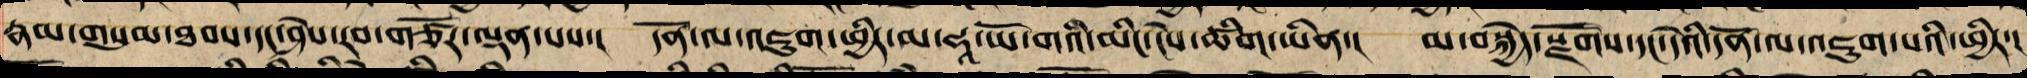རྣམ་གསུམ་ཐབས་དང་ཤེས་རབ་གཙོར་བཏོན་པས་། དོན་ལ་འཇུག་ཕྱིར་མ་ཧཱ་ཡོ་གའི་མིང་གི་ངེས་ཚིག་ཡིན་། མ་བསྐྱེད་སྫོགས་དང་དེ་ཡི་དོན་ལ་འཇུག་པའི་ཕྱིར་།
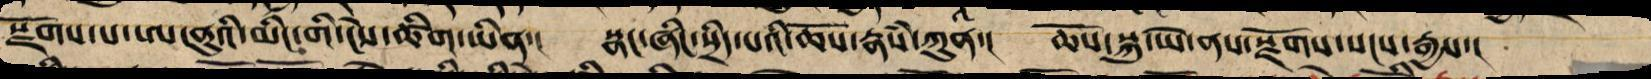སྫོགས་པ་ཨ་ནུའི་མིང་གི་ངེས་ཚིག་ཡིན་། སྣང་ཞིང་སྲིད་པའི་ཆོས་རྣཾས་ཀུན་། ཆོས་སྐུ་ཡེ་ནས་སྫོགས་སངས་རྒྱས་།
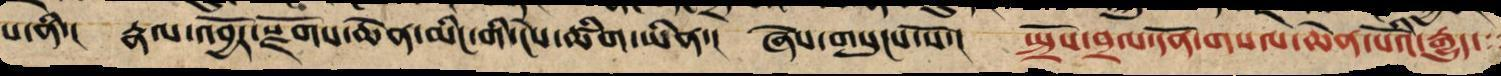པ་ནི་། རྣལ་འབྱོར་སྫོགས་ཆེན་མིང་གི་ངེས་ཚིག་ཡིན་། ཞེས་གསུངས་སོ་། སྤྲོས་བྲལ་དོན་གསལ་ཆེན་པོའི་རྒྱུད་
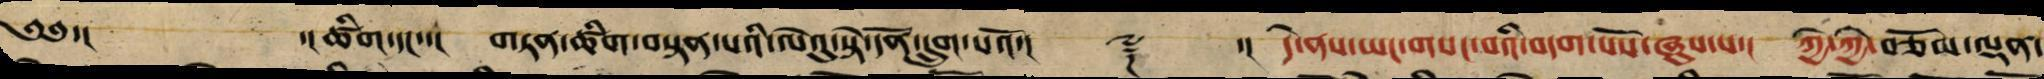༄༅་།  ་།ཚིག་དང་་། གཏན་ཚིགས་བསྟན་པའི་ལེའུ་སྟེ་དོན་དྲུག་པའོ་།། ༈ ་།། དེ་ནས་ཡང་གསང་བའི་བདག་པོས་ཞུས་པ་། ཀྱེ་ཀྱེ་བཅོམ་ལྡན་
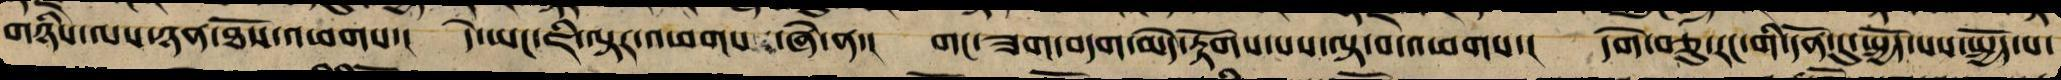གཉིས་ལས་ཉན་ཐོས་འཕགས་། དེ་ཡང་ཅི་ལྟར་འཕགས་ཞེ་ན་། གང་ཟག་བདག་མེད་རྟོགས་པས་ལྟ་བ་འཕགས་། དགེ་བཅུ་རང་གིས་དོན་དུ་སྤྱོད་པས་སྤྱོད་པ་
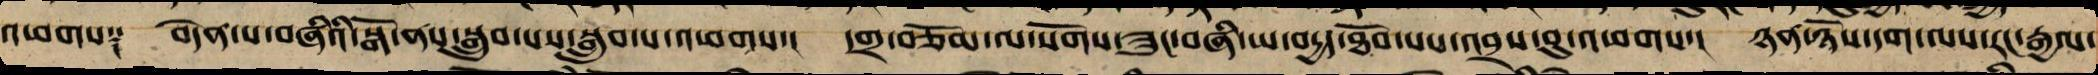འཕགས༑ བདེན་པ་བཞི་ཡི་སྒོ་ནས་སྒྲུབ་པས་སྒྲུབ་པ་འཕགས་། དགྲ་བཅོམ་ལ་སོགས་ཟུང་བཞི་ཡ་བདྱད་ཐོབ་པས་འབྲས་བུ་འཕགས་། ཉན་ཐོས་དག་ལས་རང་རྒྱལ་
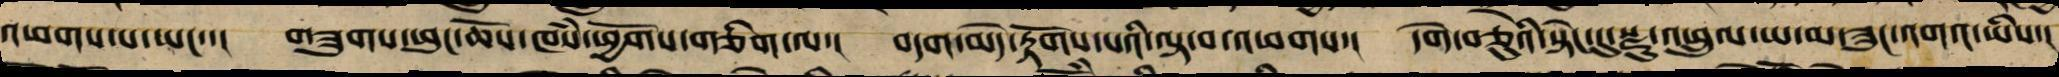འཕགས་པ་ཡང་་། གཟུགས་ཕུང་ཆོས་ཁཾས་ཕྱོགས་གཅིག་ལ་། བདག་མེད་རྟོགས་པའི་ལྟ་བ་འཕགས་། དགེ་བཅུའི་སྟེང་དུ་སྫུ་འཕྲུལ་ཡ་མ་ཟུང་འགའ་ཡིས་།
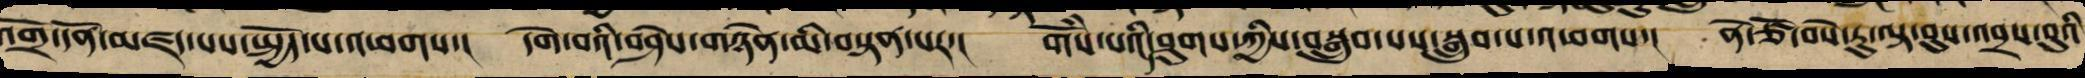འགྲོ་དོན་མཛད་པས་སྤྱོད་པ་འཕགས་། དགེ་བའི་བཤེས་གཉེན་མི་བསྟན་པར་། གོཾས་པའི་ཤུགས་ཀྱིས་བསྒྲུབ་པས་སྒྲུབ་པ་འཕགས་། ནེ་ཙོ་བསེ་རུ་ལྟ་བུས་འབྲས་བུའི
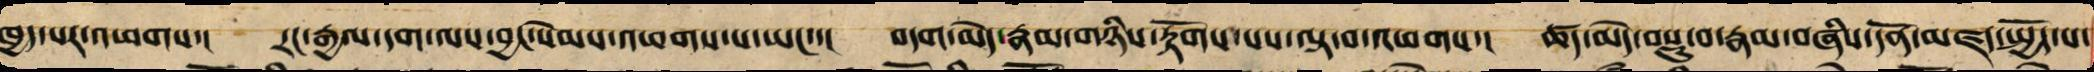ཁྱད་པར་འཕགས་། རང་རྒྱལ་དག་ལས་བྱང་སེམས་འཕགས་པ་ཡང་་། བདག་མེད་རྣམ་གཉིས་རྟོགས་པས་ལྟ་བ་འཕགས་། ཚད་མེད་བསྡུ་བ་རྣམ་བཞིས་དོན་མཛད་སྤྱོད་པ་
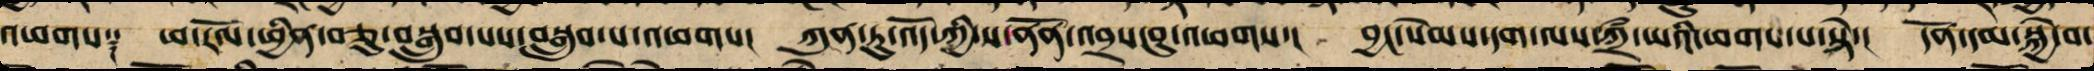འཕགས༑ ཕ་རོལ་ཕྱིན་བཅུ་བསྒྲུབ་པས་བསྒྲུབ་པ་འཕགས་། ཀུན་ཏུ་འོད་ཀྱི་ས་ནོན་འབྲས་བུ་འཕགས་། བྱང་སེམས་དག་ལས་ཀྲྀ་ཡ་འཕགས་པ་སྟེ་། དོན་དམ་སྐྱེ་བ་
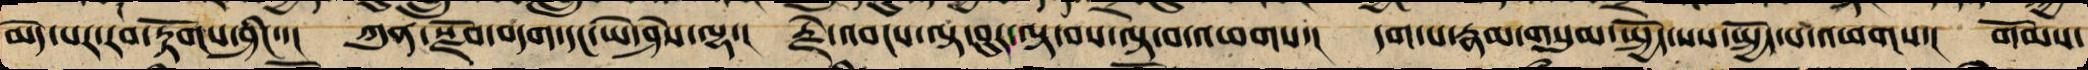མེད་པར་རབ་རྟོགས་ཤིང་་། ཀུན་སྫོབ་བདག་དང་ཡེ་ཤེས་ལྷ་། རྗེ་འབངས་ལྟ་བུར་བལྟ་བས་ལྟ་བ་འཕགས་། དག་པ་རྣམ་གསུམ་སྤྱོད་པས་སྤྱོད་པ་འཕགས་། གོམས་
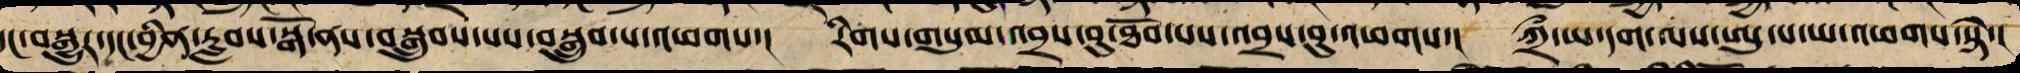དང་བསྒྱུར་དང་བྱིན་རླབས་སྒོ་ནས་བསྒྲུབ་པས་སྒྲུབ་པ་འཕགས་། རིགས་གསུམ་འབྲས་བུ་ཐོབ་པས་འབྲས་བུ་འཕགས་།  ཀྲྀ་ཡ་དག་ལས་ཨུ་པ་ཡ་འཕགས་ཏེ་།
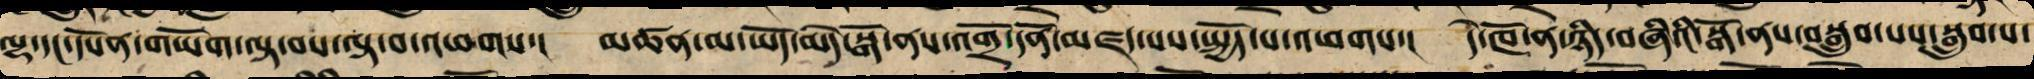ལྷ་དང་དཔོན་གཡོག་ལྟ་བས་ལྟ་བ་འཕགས་། མཚན་མ་ཡོད་མེད་སྒོ་ནས་འགྲོ་དོན་མཛད་པས་སྤྱོད་པ་འཕགས་། དེ་ཁོ་ན་ཉིད་བཞིའི་སྒོ་ནས་བསྒྲུབ་པས་སྒྲུབ་པ་
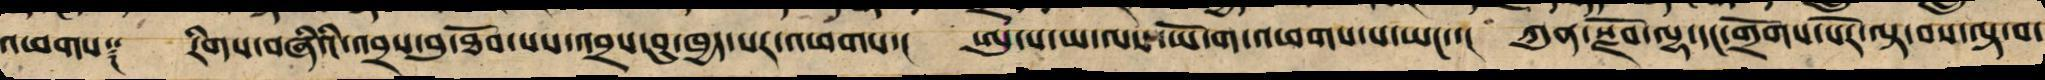འཕགས༑ རིགས་བཞིའི་འབྲས་བུ་ཐོབ་པས་འབྲས་བུ་ཁྱད་པར་འཕགས་། ཨུ་པ་ཡ་ལས་ཡོ་ག་འཕགས་པ་ཡང་་། ཀུན་སྫོབ་ལྷ་དང་གྲོགས་པོར་ལྟ་བས་ལྟ་བ་
